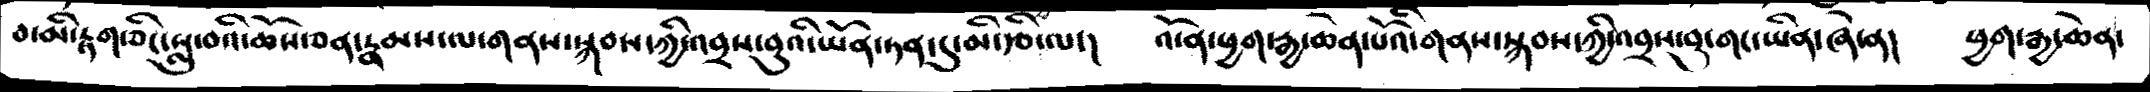བ་མི་རྟག་ཅིང་སླུ་བའི་ཆོས་ཅན་རྣམས་ལ་གནས་སྐབས་ཀྱི་འབྲས་བུའི་ཡོན་ཏན་དུ་མི་རྩི་ལ་།   འོ་ན་ཕྱག་རྒྱ་ཆེན་པོའི་གནས་སྐབས་ཀྱི་འབྲས་བུ་གང་ཡིན་ཞེ་ན།   ཕྱག་རྒྱ་ཆེན་
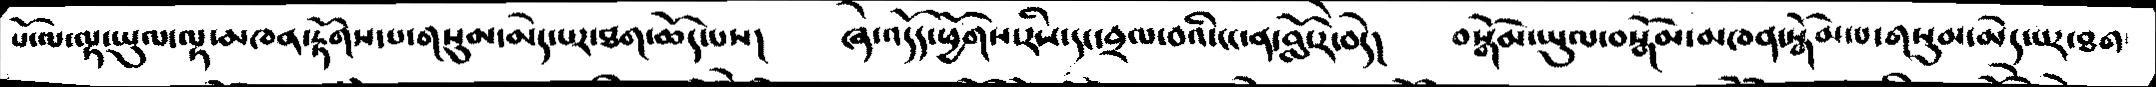པོ་ལ་ལྟ་ཡུལ་ལྟ་མཁན་རྟོགས་པ་གསུམ་མེད་པར་ཐག་ཆོད་པས།   ཞེ་འདོད་ཕྱོགས་རིས་དང་བྲལ་བའི་ངང་ན་བློ་རེ་བདེ།   བསྒོམ་ཡུལ་བསྒོམ་མཁན་སྒོམ་པ་གསུམ་མེད་པར་ཐག
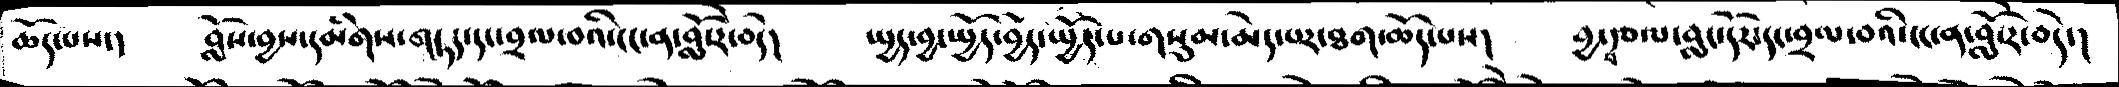ཆོད་པས་།   བློས་བྱས་དམིགས་གཏད་དང་བྲལ་བའི་ངང་ན་བློ་རེ་བདེ།   སྤྱད་བྱ་སྤྱོད་བྱེད་སྤྱོད་པ་གསུམ་མེད་པར་ཐག་ཆོད་པས།  བྱ་བརྩལ་བླང་དོར་དང་བྲལ་བའི་ངང་ན་བློ་རེ་བདེ་།
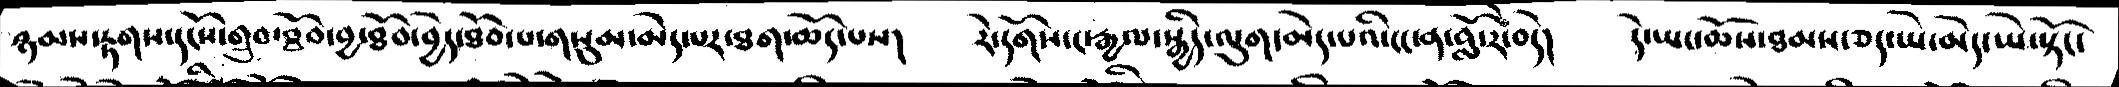ཉམས་རྟགས་དངོས་གྲུབ་ཐོབ་བྱ་ཐོབ་བྱེད་ཐོབ་པ་གསུམ་མེད་པར་ཐག་ཆོད་པས།  རེ་དོགས་ང་རྒྱལ་སྒྱིད་ལུག་མེད་པའི་ངང་ན་བློ་རེ་བདེ།  དེ་ཡང་ཆོས་ཐམས་ཅད་ཡེ་མེད་ཡེ་སྟོང་
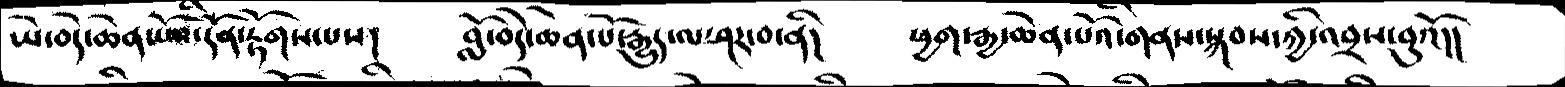ཡེ་བདེ་ཆེན་པོའི་དོན་རྟོགས་པས།   བློ་བདེ་ཆེན་པོ་རྒྱུད་ལ་ཤར་བ་ནི།   ཕྱག་རྒྱ་ཆེན་པོའི་གནས་སྐབས་ཀྱི་འབྲས་བུའོ།།
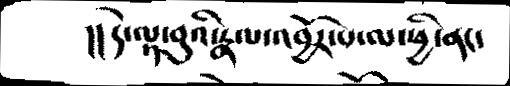།། དེ་ལྟ་བུའི་རྣལ་འབྱོར་པ་ལ་ཕྱི་ནང་
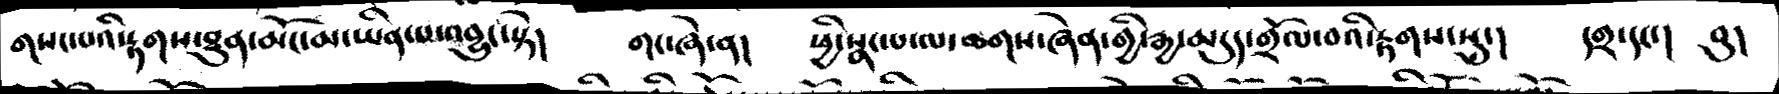གསང་པའི་རྟགས་ཐུན་མོང་མ་ཡིན་པ་འབྱུང་སྟེ།   གང་ཞེ་ན།  ཕྱི་སྣང་པ་ལ་ཆགས་ཞེན་གྱི་རྒྱ་མདུད་གྲོལ་བའི་རྟགས་སུ་།   དགྲ་དང་།   བུ།
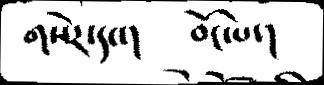གསེར་དང་།     བོང་པ་།
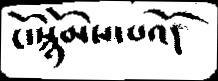ངོ་སྙོམས་པའོ།
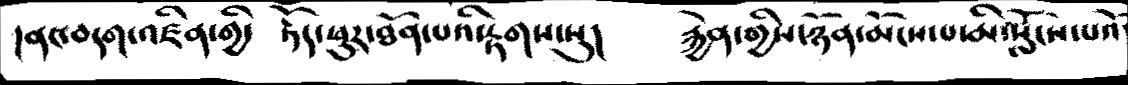།ནང་བདག་འཛིན་གྱི་ རྟོད་ཕུར་ཐོན་པའི་རྟགས་སུ།     རྐྱེན་གྱིས་ཉོན་མོངས་པ་མི་སློངས་པའོ་
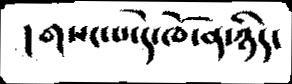། གསང་པ་དེ་ཁོ་ན་ཉིད།
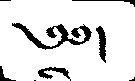༄༅།
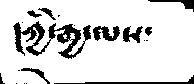།ཀྱི་རྒྱ་ལས་
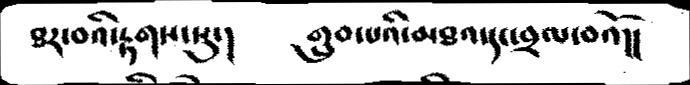ཐར་བའི་རྟགས་སུ་།     གྲུབ་པའི་མཐའ་དང་བྲལ་བའོ།།
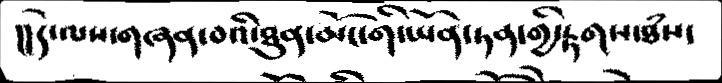།།དེ་ལས་གཞན་བའི་ཐུན་མོང་གི་ཡོན་ཏན་གྱི་རྟགས་ཐཾས་
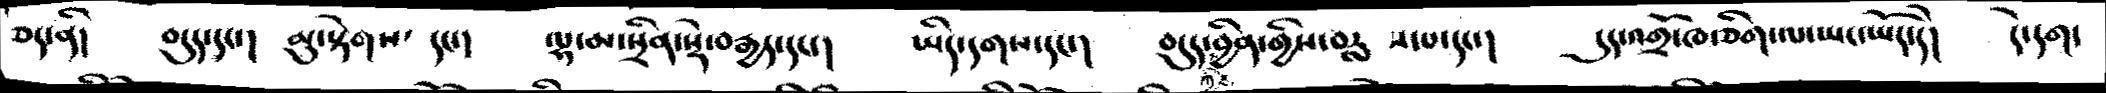ཅད་ནི།   བདུད་དང་།  མུ་སྟེགས་དང་།  ལྷ་མ་སྲིན་སྡེ་བརྒྱད་དང་།  ཡིད་དགས་དང་།  བདུད་ཀྱིས་བྱིན་གྱིས་བརླབས་པ་དང་།  དུད་འགྲོ་ཁ་ཅིག་ལ་ཡང་ཡོད་དེ།  དེ་དག་
